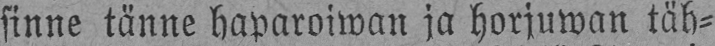sinne tänne haparoiwan ja horjuwan täh-
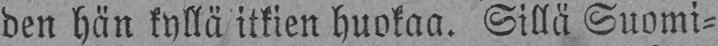den hän kyllä itkien huokaa. Sillä Suomi-
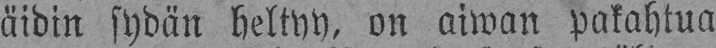äidin sydän heltyy, on aiwan pakahtua
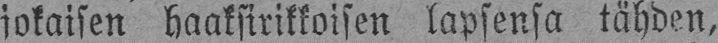jokaisen haaksirikkoisen lapsensa tähden,
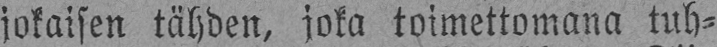jokaisen tähden, joka toimettomana tuh-
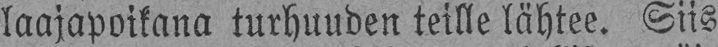laajapoikana turhuuden teille lähtee. Siis
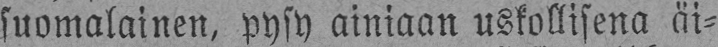suomalainen, pysy ainiaan uskollisena äi-
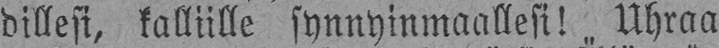dillesi, kalliille synnyinmaallesi! Uhraa
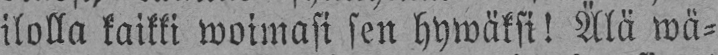ilolla kaikki woimasi sen hywäksi! Älä wä-
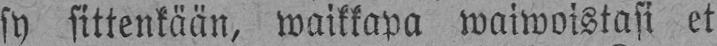sy sittenkään, waikkapa waiwoistasi et
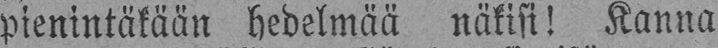pienintäkään hedelmää näkisi! Kanna
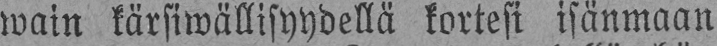wain kärsiwällisyydellä kortesi isänmaan
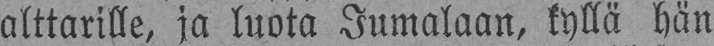alttarille, ja luota Jumalaan, kyllä hän
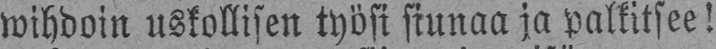wihdoin uskollisen työsi siunaa ja palkitsee!
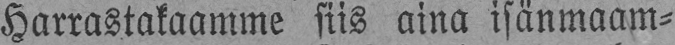Harrastakaamme siis aina isänmaam-
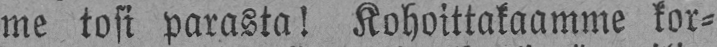me tosi parasta! Kohoittakaamme kor-
